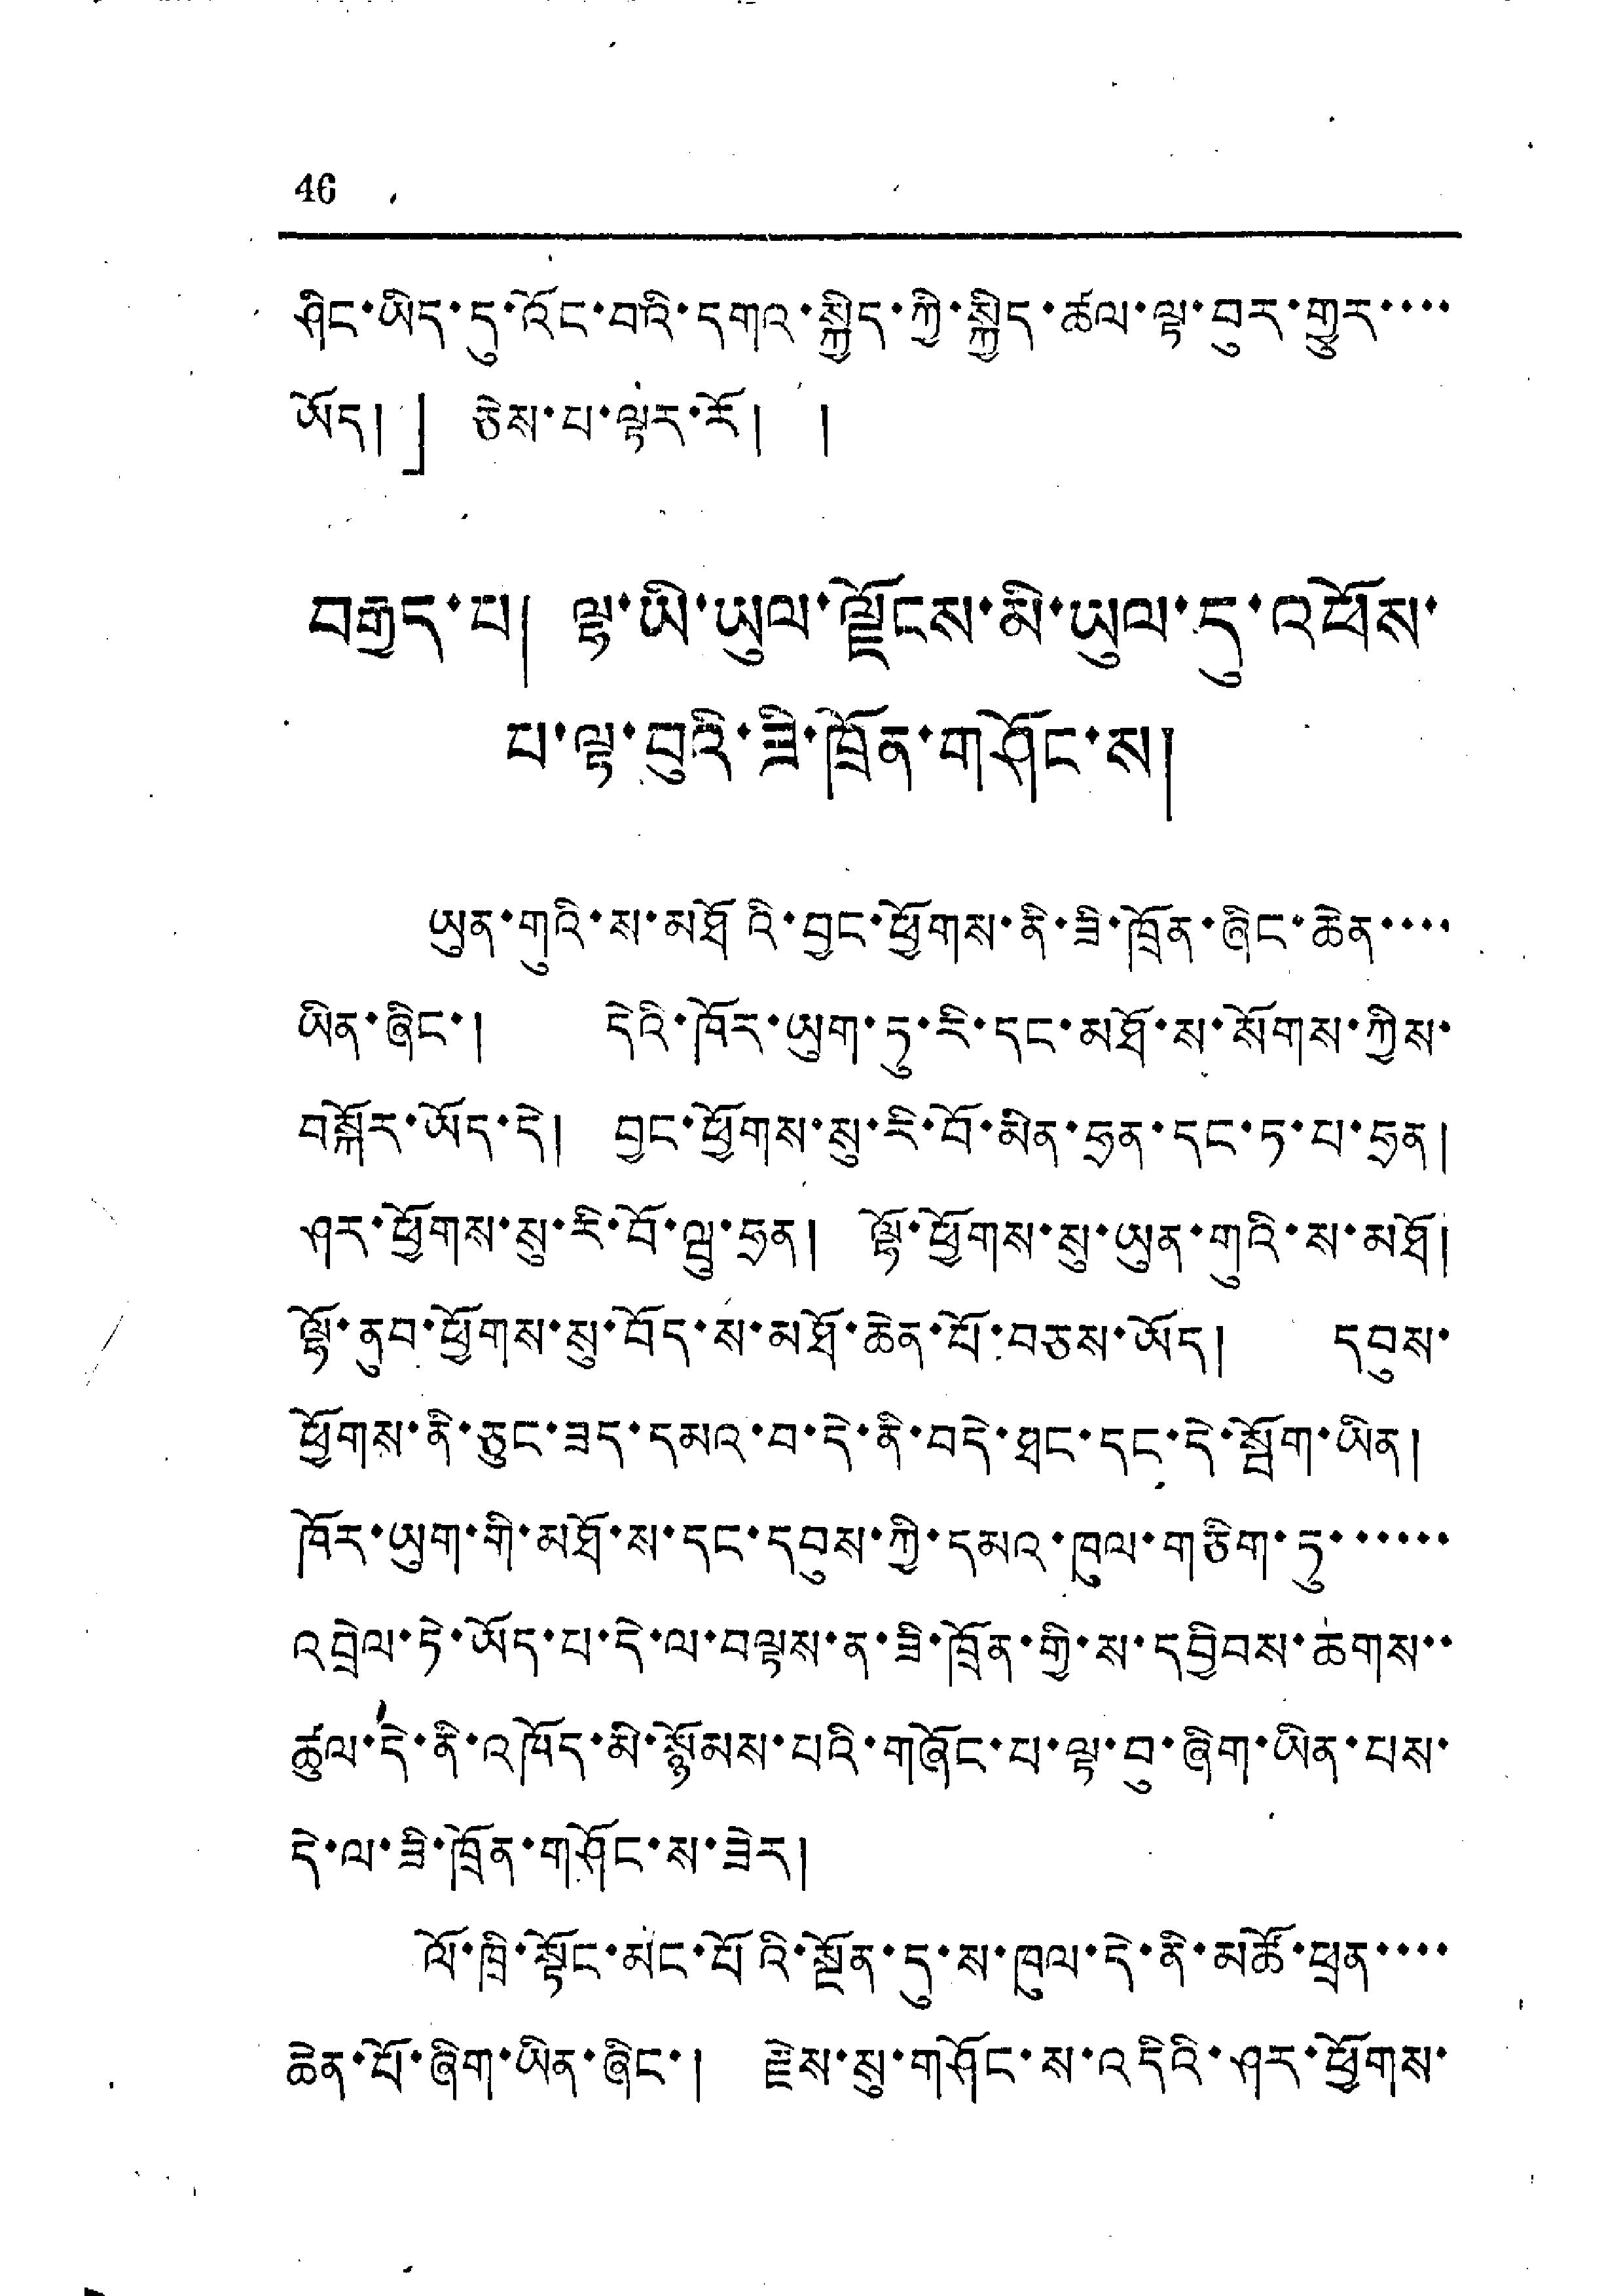46
ཤིང་ཡིད་དུ་འོང་བའི་དགའ་སྐྱིད་ཀྱི་སྐྱིད་ཚལ་ལྟ་བུར་གྱུར་་་་
ཡོད།」ཅེས་པ་ལྟར་རོ། །
བརྒྱད་པ། ལྷ་ཡི་ཡུལ་ལྗོངས་མི་ཡུལ་དུ་འཕོས་
པ་ལྟ་བུའི་ཟི་ཁྲོན་གཤོང་ས།
ཡུན་གུའི་ས་མཐོའི་བྱང་ཕྱོགས་ནི་ཟི་ཁྲོན་ཞིང་ཆེན་་་་
ཡིན་ཞིང་། དེའི་ཁོར་ཡུག་ཏུ་རི་དང་མཐོ་ས་སོགས་ཀྱིས་
བསྐོར་ཡོད་དེ། བྱང་ཕྱོགས་སུ་རི་བོ་མིན་ཧྲན་དང་ཏ་པ་ཧྲན།
ཤར་ཕྱོགས་སུ་རི་བོ་ཝུ་ཧྲན། ལྷོ་ཕྱོགས་སུ་ཡུན་གུའི་ས་མཐོ།
ལྷོ་ནུབ་ཕྱོགས་སུ་བོད་ས་མཐོ་ཆེན་པོ་བཅས་ཡོད། དབུས་
ཕྱོགས་ནི་ཅུང་ཟད་དམའ་བ་དེ་ནི་བདེ་ཐང་དང་དེ་སྦོག་ཡིན།
ཁོར་ཡུག་གི་མཐོ་ས་དང་དབུས་ཀྱི་དམའ་ཁུལ་གཅིག་ཏུ་་་་་་
འབྲེལ་ཏེ་ཡོད་པ་དེ་ལ་བལྟས་ན་ཟི་ཁྲོན་གྱི་ས་དབྱིབས་ཆགས་་
ཚུལ་དེ་ནི་འཁོད་མི་སྙོམས་པའི་གཞོང་པ་ལྟ་བུ་ཞིག་ཡིན་པས་
དེ་ལ་ཟི་ཁྲོན་གཤོང་ས་ཟེར།
ལོ་ཁྲི་སྟོང་མང་པོའི་སྔོན་དུ་ས་ཁུལ་དེ་ནི་མཚོ་ཕྲན་་་་
ཆེན་པོ་ཞིག་ཡིན་ཞིང་། རྗེས་སུ་གཤོང་ས་འདིའི་ཤར་ཕྱོགས་
